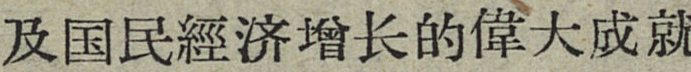及国民經济增長的偉大成就
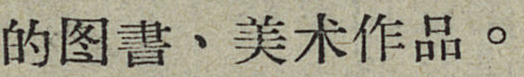的图書、美术作品。
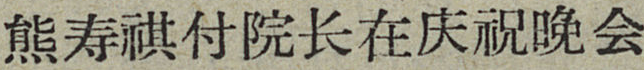熊寿祺付院长在庆祝晚会
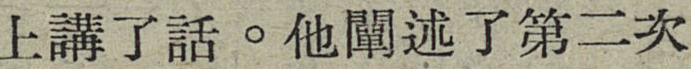上講了話。他闡述了第二次
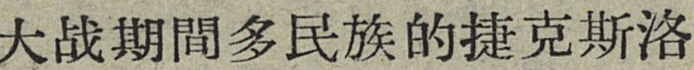大战期間多民族的捷克斯洛
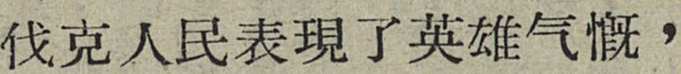伐克人民表現了英雄气概，
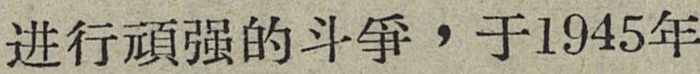进行頑强的斗爭，于1945年
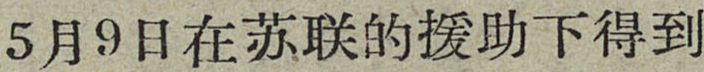5月9日在苏联的援助下得到
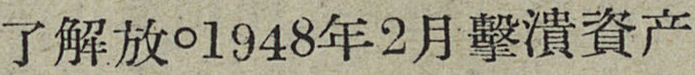了解放。1948年2月擊潰資产
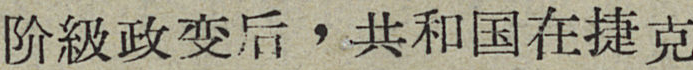阶級政变后，共和国在捷克
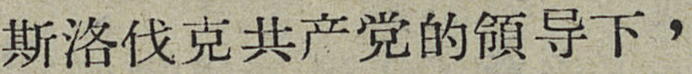斯洛伐克共产党的領导下，
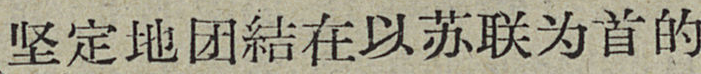坚定地团結在以苏联为首的
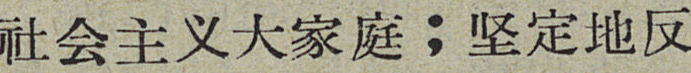社会主义大家庭；坚定地反
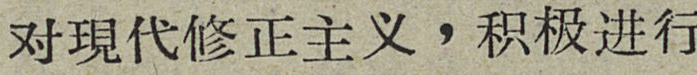对現代修正主义，积极进行
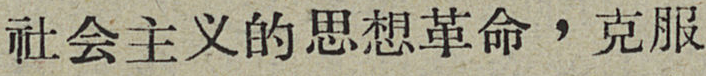社会主义的思想革命，克服
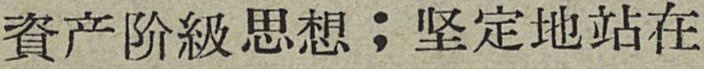資产阶級思想；坚定地站在
